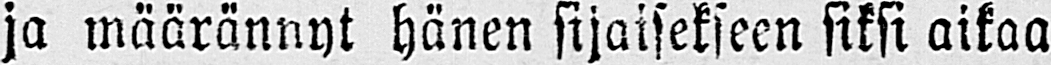ja määrännyt hänen sijaisekseen siksi aikaa
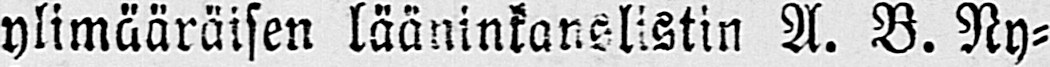ylimääräisen lääninkanslistin A. B. Ny-
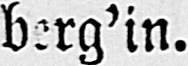berg’in.
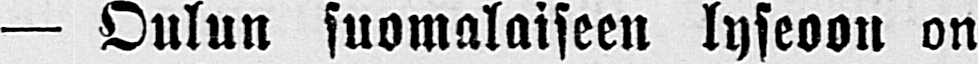— Oulun suomalaiseen lyseoon on
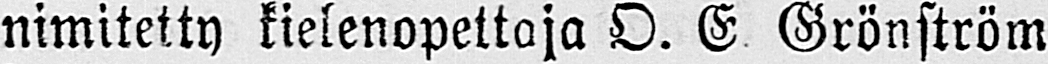nimitetty kielenopettaja O. E Grönström
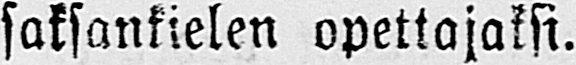saksankielen opettajaksi.
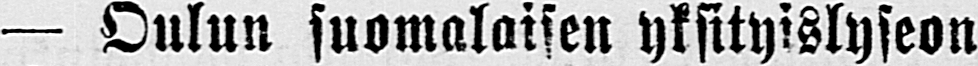— Oulun suomalaisen yksityislyseon
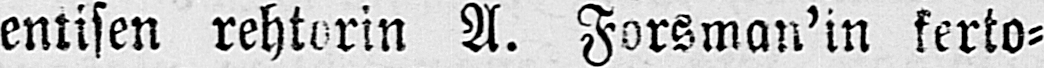entisen rehtorin A. Forsman’in kerto-
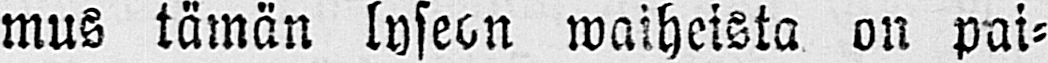mus tämän lyseon waiheista on pai-
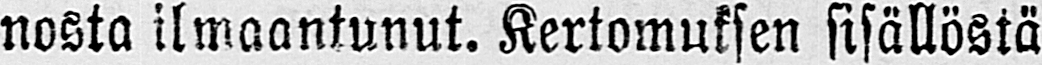nosta ilmaantunut. Kertomuksen sisällöstä
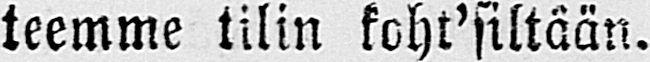teemme tilin koht’siltään.
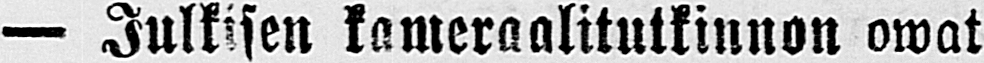— Julkisen kameraalitutkinnon owat
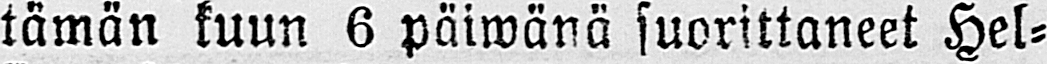tämän kuun 6 päiwänä suorittaneet Hel-
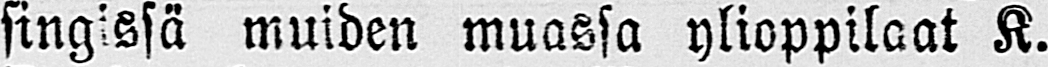singissä muiden muassa ylioppilaat K.
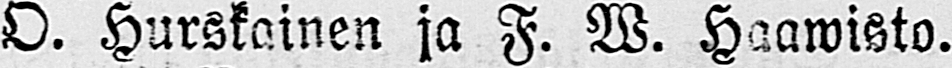O. Hurskainen ja F. W. Haawisto.
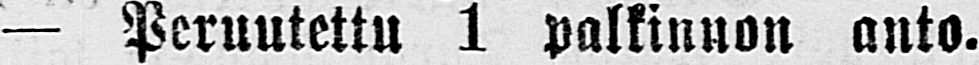— Peruutettu 1 palkinnon anto.
